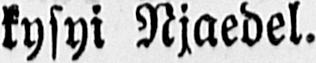kysyi Njaedel.
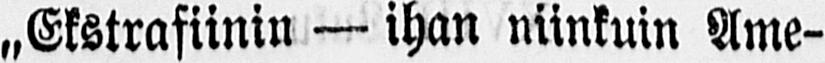„Ekstrafiinin — ihan niinkuin Ame-
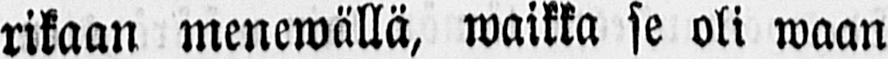rikaan menewällä, waikka se oli waan
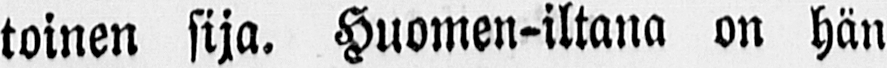toinen sija. Huomen-iltana on hän
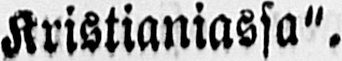Kristianiassa".
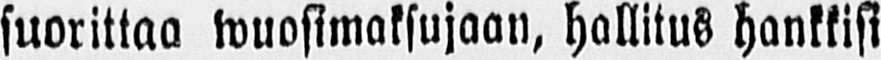suorittaa wuosimaksujaan, hallitus hankkisi
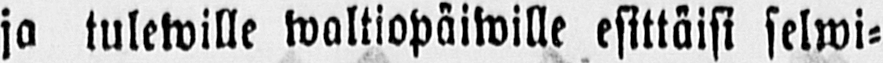ja tulewille waltiopäiwille esittäisi selwi-
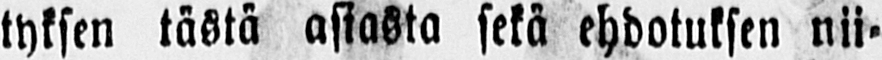tyksen tästä asiasta sekä ehdotuksen nii-
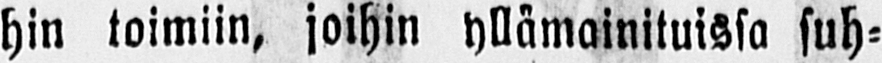hin toimiin, joihin yllämainituissa suh-
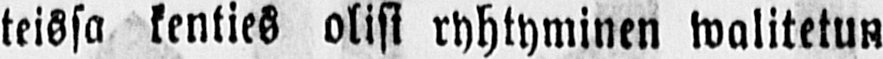teissa kenties olisi ryhtyminen walitetun
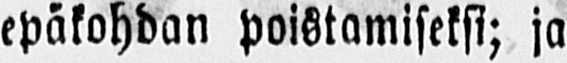epäkohdan poistamiseksi; ja
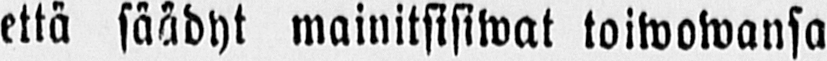että säädyt mainitsisiwat toiwowansa
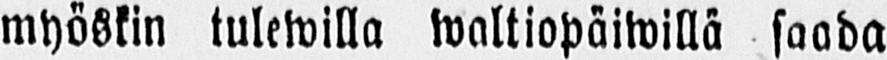myöskin tulewilla waltiopäiwillä saada
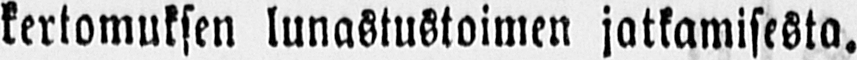kertomuksen lunastustoimen jatkamisesta.
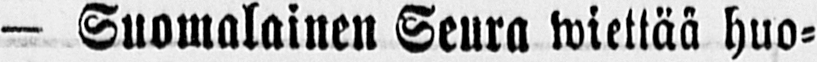— Suomalainen Seura wiettää huo-
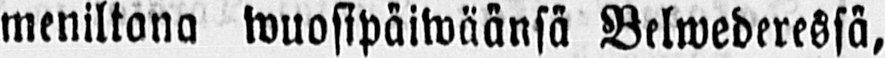meniltana wuosipäiwäänsä Belwederessä,
